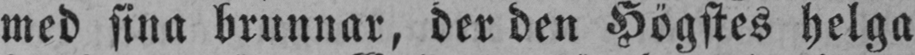med sina brunnar, der den Högstes helga
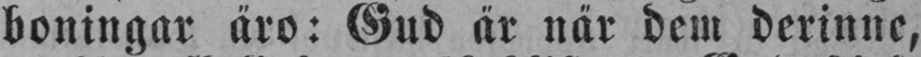boningar äro: Gud är när dem derinne,
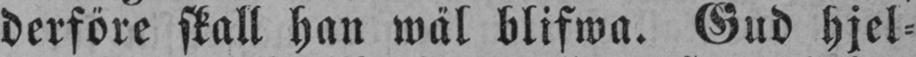derföre skall han wäl blifwa. Gud hjel-
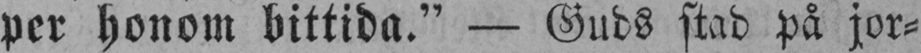per honom bittida." — Guds stad på jor-
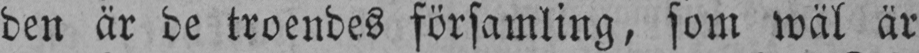den är de troendes församling, som wäl är
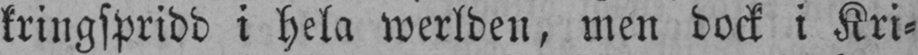kringspridd i hela werlden, men dock i Kri-
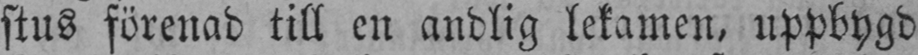stus förenad till en andlig lekamen, uppbygd
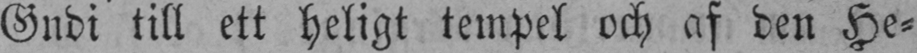Gndi till ett heligt tempel och af den He-
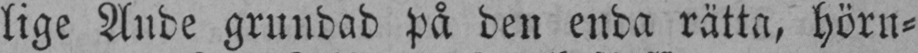lige Ande grundad på den enda rätta, hörn-
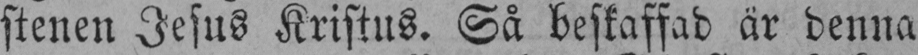stenen Jesus Kristus. Så beskaffad är denna
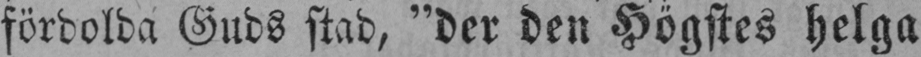fördolda Guds stad, "der den Högstes helga
